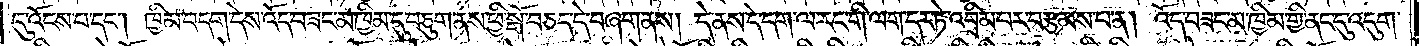དུ་འོངས་པ་དང༌། ཁྱིམ་བདག་དེས་འོད་བཟང་མ་ཁྱིམ་དུ་བཅུག་ནས་ཕྱི་སྒོ་བཅད་དེ་བཞག་ནས། དེ་ནས་དེ་དག་ལ་རང་གི་ལག་དར་ཏེ་འབྲིམ་པར་བརྩམས་པ་ན། འོད་བཟང་མ་ཁྱིམ་གྱི་ནང་དུ་འདུག་
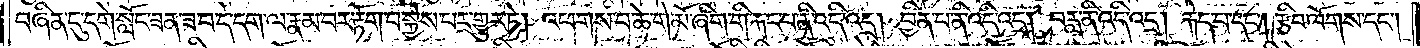བཞིན་དུ་དགེ་སློང་ཟན་ཟ་བ་དེ་དག་ལ་རྣམ་པར་རྟོག་པ་སྐྱེས་པར་གྱུར་ཏེ། འཕགས་པ་ཆེ་གེ་མོ་ཞིག་གི་རྐང་པ་ནི་འདི་འདྲ། བྱིན་པ་ནི་འདི་འདྲ། བརླ་ནི་འདི་འདྲ། རྐེད་པ་དང༌། རྩིབ་ལོགས་དང༌།
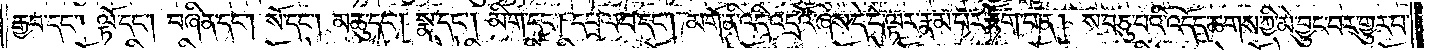རྒྱབ་དང༌། ལྟོ་དང༌། བཞིན་དང༌། སོ་དང༌། མཆུ་དང༌། སྣ་དང༌། མིག་དང༌། དཔྲལ་བ་དང༌། མགོ་ནི་འདི་འདྲའོ་ཞེས་དེ་དེ་ལྟར་རྣམ་པར་རྟོག་པ་ན། ས་བཅུ་པའི་འདོད་ཆགས་ཀྱི་མེ་བྱུང་བར་གྱུར་པ་
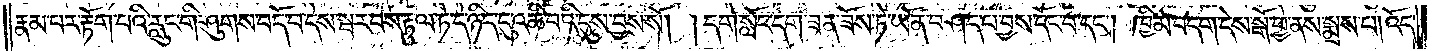རྣམ་པར་རྟོག་པའི་རླུང་གི་ཤུགས་བདོ་བ་དེས་སྦར་བས་རྟུལ་ཏེ་དེ་ཉིད་དུ་འཆི་བའི་དུས་བྱས་སོ། །དགེ་སློང་དག་ཟན་ཟོས་ཏེ་ཡོན་བཤད་པ་བྱས་དོང་བ་དང༌། ཁྱིམ་བདག་དེས་སྒོ་ཕྱེ་ནས་སྨྲས་པ། འོད་
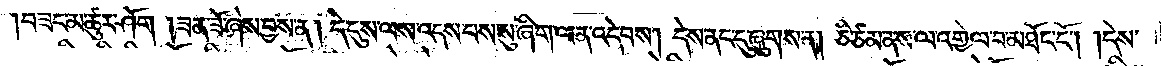བཟང་མ་ཚུར་ཤོག །ཟན་ཟོ་ཞེས་བྱས་ན། དེ་དུས་ལས་འདས་པས་སུ་ཞིག་ལན་འདེབས། དེས་ནང་དུ་ཞུགས་ན། ཅི་ཙམ་ནས་ལ་འགྱེལ་པ་མཐོང་ངོ༌། །དེས་
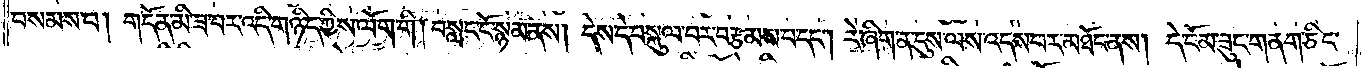བསམས་པ། གདོན་མི་ཟ་བར་འདི་གཉིད་ཀྱིས་ལོག་གི། བསླང་ངོ་སྙམ་ནས། དེས་དེ་བསྐུལ་བར་བརྩམས་པ་དང༌། རེ་ཞིག་ན་དུས་ལས་འདས་པར་མཐོང་ནས། དེ་ངོམ་ཟུང་གནག་ཅིང་
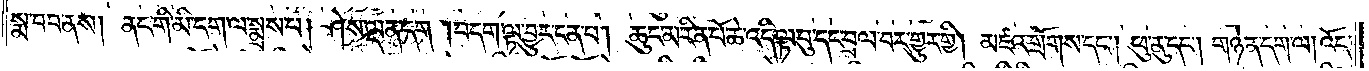སྨ་བབ་ནས། ནང་གི་མི་དག་ལ་སྨྲས་པ། ཤེས་ལྡན་དག །བདག་ལྟ་བྱུར་ངན་པ། ཆུང་མ་རིན་པོ་ཆེ་འདི་ལྟ་བུ་དང་བྲལ་བར་གྱུར་གྱི། མཛའ་གྲོགས་དང༌། ཕུ་ནུ་དང༌། གཉེན་དག་ལ། འོད་
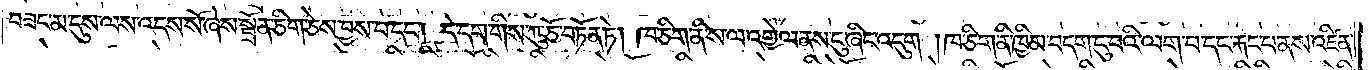བཟང་མ་དུས་ལས་འདས་སོ་ཞེས་སྦྲོན་ཅིག་ཅེས་བྱས་པ་དང༌། དེ་དག་གིས་ཀུ་ཅོ་བཏོན་ཏེ། ཁ་ཅིག་ནི་ས་ལ་འགྱེལ་ནས་ངུ་ཞིང་འདུག། ཁ་ཅིག་ནི་ཁྱིམ་བདག་ངུ་བའི་ལག་པ་དང་རྐང་པ་ནས་འཛིན་
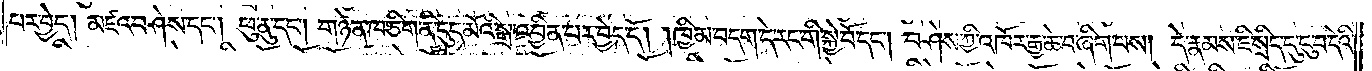པར་བྱེད། མཛའ་བཤེས་དང༌། ཕུ་ནུ་དང༌། གཉེན་ཁ་ཅིག་ནི་ངུད་མོའི་སྒྲ་འབྱིན་པར་བྱེད་དོ། །ཁྱིམ་བདག་དེ་རང་གི་སྐྱེ་བོ་དང༌། བཤེས་ཀྱི་འཁོར་རྒྱ་ཆེ་བ་ཞིག་པས། དེ་རྣམས་ཇི་སྲིད་དུ་ངུ་བ་དེའི་
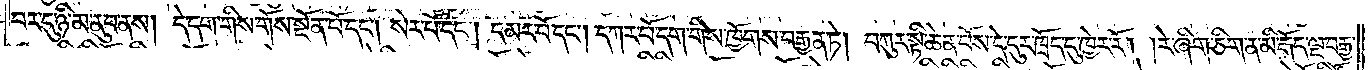བར་དུ་ཉི་མ་ནུབ་ནས། དེ་དག་གིས་གོས་སྔོན་པོ་དང༌། སེར་པོ་དང༌། དམར་པོ་དང༌། དཀར་པོ་དག་གིས་ཁྱོགས་བརྒྱན་ཏེ། བཀུར་སྟི་ཆེན་པོས་དེ་དུར་ཁྲོད་དུ་ཁྱེར་རོ། །རེ་ཞིག་ཅིག་ན་མི་རྒོད་ལྔ་བརྒྱ་
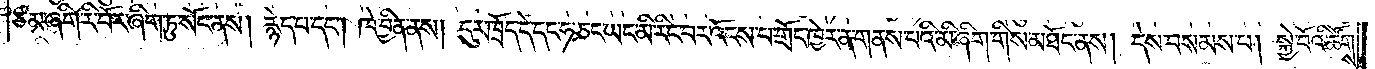ཙམ་ཞིག་རི་བོར་ཞིག་ཏུ་སོང་ནས། རྙེད་པ་དང༌། ཁེ་བྱིན་ནས། དུར་ཁྲོད་དེ་དང་ཧ་ཅང་ཡང་མི་རིང་བར་འོངས་པ་གྲོང་ཁྱེར་ན་གནས་པའི་མི་ཞིག་གིས་མཐོང་ནས། དེས་བསམས་པ། སྐྱེ་བོའི་ཚོགས་
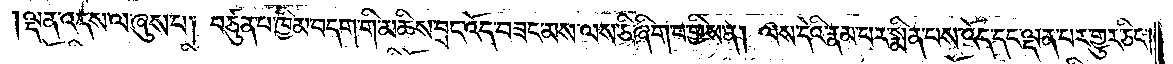ལྡན་འདས་ལ་ཞུས་པ། བཙུན་པ་ཁྱིམ་བདག་གི་མཆིས་བྲང་འོད་བཟང་མས་ལས་ཅི་ཞིག་བགྱིས་ན། ལས་དེའི་རྣམ་པར་སྨིན་པས་འོད་དང་ལྡན་པར་གྱུར་ཅིང༌།
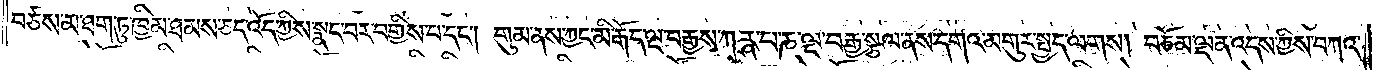བཙས་མ་ཐག་ཏུ་ཁྱིམ་ཐམས་ཅད་འོད་ཀྱིས་སྣང་བར་བགྱིས་པ་དང༌། གུམ་ནས་ཀྱང་མི་རྒོད་ལྔ་བརྒྱས་ཀཪྴ་པ་ཎ་ལྔ་བརྒྱ་སྩལ་ནས་དགའ་མགུར་སྤྱད་ལགས། བཅོམ་ལྡན་འདས་ཀྱིས་བཀའ་
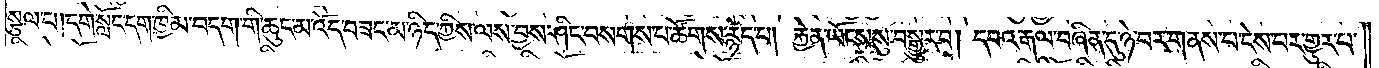སྩལ་པ། དགེ་སློང་དག་ཁྱིམ་བདག་གི་ཆུང་མ་འོད་བཟང་མ་ཉིད་ཀྱིས་ལས་བྱས་ཤིང་བསགས་པ་ཚོགས་རྙེད་པ། རྐྱེན་ཡོངས་སུ་བསྒྱུར་བ། དཔའ་རྒལ་བཞིན་དུ་ཉེ་བར་གནས་པ་ངེས་པར་གྱུར་པ་
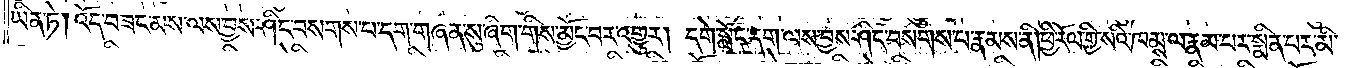ཡིན་ཏེ། འོད་བཟང་མས་ལས་བྱས་ཤིང་བསགས་པ་དག་གཞན་སུ་ཞིག་གིས་མྱོང་བར་འགྱུར། དགེ་སློང་དག་ལས་བྱས་ཤིང་བསགས་པ་རྣམས་ནི། ཕྱི་རོལ་གྱི་སའི་ཁམས་ལ་རྣམ་པར་སྨིན་པར་མི་
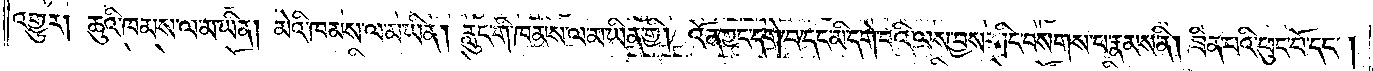འགྱུར། ཆུའི་ཁམས་ལ་མ་ཡིན། མེའི་ཁམས་ལ་མ་ཡིན། རླུང་གི་ཁམས་ལ་མ་ཡིན་གྱི། འོན་ཀྱང་དགེ་བ་དང་མི་དགེ་བའི་ལས་བྱས་ཤིང་བསགས་པ་རྣམས་ནི། ཟིན་པའི་ཕུང་པོ་དང༌།
